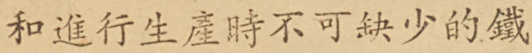和進行生產時不可缺少的鐵
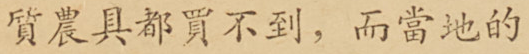質農具都買不到，而當地的
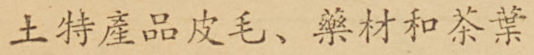土特產品皮毛、藥材和茶葉
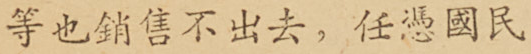等也銷售不出去，任憑國民
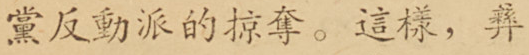黨反動派的掠奪。這樣，彝
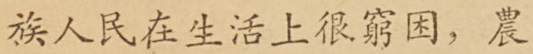族人民在生活上很窮困，農
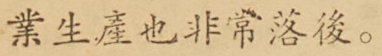業生產也非常落後。
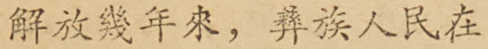解放幾年來，彝族人民在
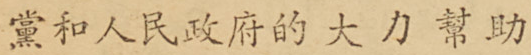黨和人民政府的大力幫助
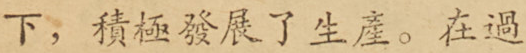下，積極發展了生產。在過
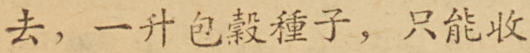去，一升包穀種子，只能收
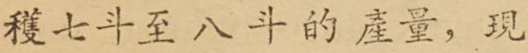穫七斗至八斗的產量，現
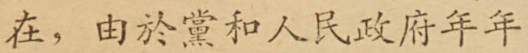在，由於黨和人民政府年年
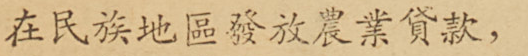在民族地區發放農業貸款，
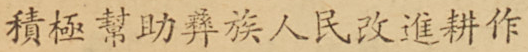積極幫助彝族人民改進耕作
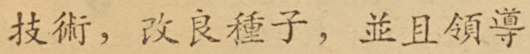技術，改良種子，並且領導
